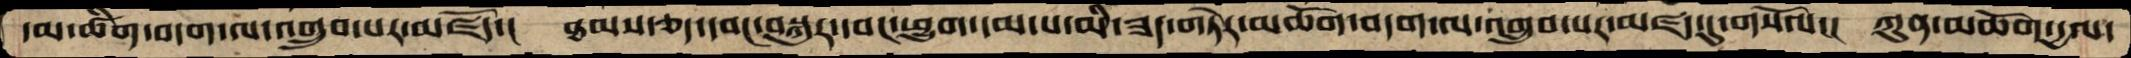དམ་ཚིག་བདག་ལ་འགྲུབ་པར་མཛོད་།  ཐམས་ཅད་དབང་བསྐུར་དབང་ཕྱུག་དམ་པ་མི་ཟད་གཏེར་མཆོག་བདག་ལ་འགྲུབ་པར་མཛད་དུ་གསོལ་།  ཀུན་མཆོག་དྱལ་
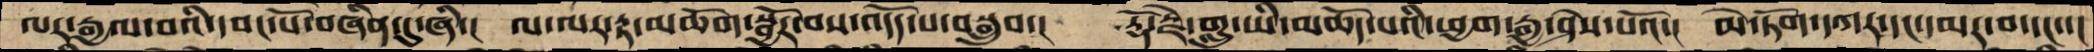ལར་རྒྱལ་བའི་དབང་པོ་བཞིན་དུ་ཞི་།  ལ་ལར་རྟ་མཆོག་སྦྱོར་བས་འདོད་པ་བསྒྲུབ་།  རྡོ་རྗེ་གླུ་ཡི་མཆོད་པའི་ཕྱག་རྒྱ་ཤེས་པའོ་།  མེ་ཏོག་དཀར་དང་དམར་བ་དང་་།
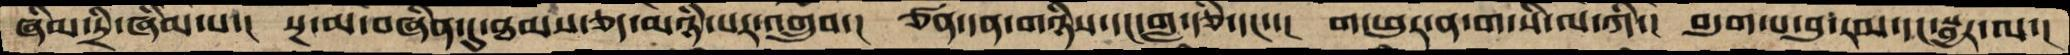ཞིམ་དྲི་ཞིམ་པ་།  སྔ་མ་བཞིན་དུ་ཐམས་ཅད་མཉཾ་པར་འགྲུབ་།  ཙན་དན་གཉིས་དང་གླ་རྩི་དང་་།  ག་ཕུར་ན་ག་སི་ལ་ཀི་།  བདུག་པ་བུ་རམ་དང་སྦྱར་ལ་།
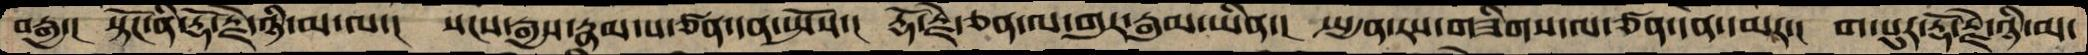བརྒྱ་།  སྟོང་ནི་རྡོ་རྗེ་ཉི་མ་ལ་།  སངས་རྒྱས་རྣམ་པ་ཙན་དན་སྤོས་།  རྡོ་རྗེ་ཅན་ལ་གུར་རྒུམ་ཡིན་།  སྤྱན་རས་གཟིགས་ལ་ཙན་དན་མར་།  ག་པུར་རྡོ་རྗེ་ཉི་མ་
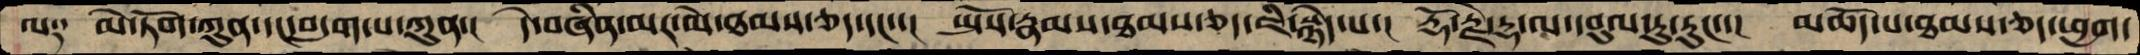ལ༑  མེ་ཏོག་ཀུན་དང་བདུག་པ་ཀུན་།  དེ་བཞིན་མར་མེ་ཐམས་ཅད་དང་་།  སྤོས་རྣམས་ཐམས་ཅད་ཇི་སྙེད་པ་།  རྡོ་རྗེ་དྷ་ལ་དབུལ་ཏུ་རུང་་།  མཆོད་པ་ཐམས་ཅད་ཕྱག་
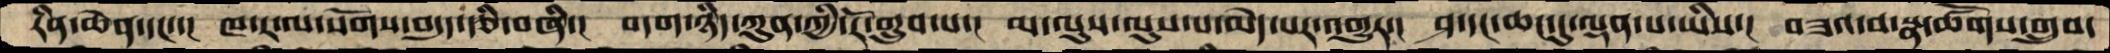རིན་ཆེན་དང་་།  ཁ་ར་ལ་སོགས་བདུད་རྩི་བཞི་།  བདག་ཉིད་ཀུན་ཀྱི་རོ་གྲུབ་པ་།  མ་ལུས་ལུས་པ་མེད་པར་འགྱུར་།  ཤ་དང་ཆང་དུ་ལྡན་པ་ཡིས་།  བཟའ་བ་སྣ་ཚོགས་གྲུབ་
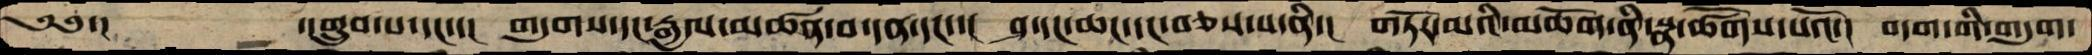༄༅་།    ་།གྲུབ་པ་དང་་།  གདུག་དང་རྒྱལ་མཚན་བ་དན་དང་་།  ཤ་དང་ཆང་དང་བཅས་པ་ནི་།  གཏོར་མའི་མཆོག་ནི་སྣ་ཚོགས་པའོ་།  བདག་གི་གདུག་
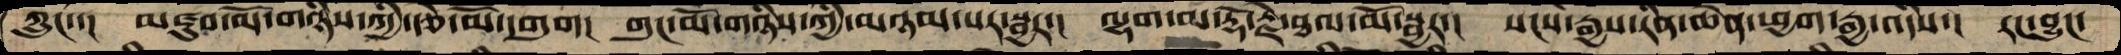ཀྲུང་་།  མཛུབ་མོ་གཉིས་ཀྱི་རྩེ་མོ་དགུག།  གུང་མོ་གཉིས་ཀྱི་མཉམ་པར་སྦྱར་།  ལྷག་མ་རྡོ་རྗེ་ཐལ་མོ་སྦྱར་།  སངས་རྒྱས་རིན་ཆེན་ཕྱག་རྒྱ་འདིས་།  རང་བྱུང་
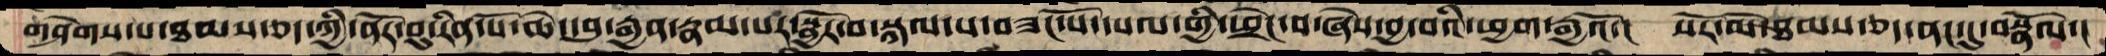གཤེགས་པ་ཐམས་ཅད་ཀྱི་ནོར་བུ་རིན་པོ་ཆེ་དབུ་རྒྱན་རྣམ་པར་སྦྱོར་བ་སྐལ་པ་བཟང་པོ་དཔལ་གྱི་ཕྲེང་བ་ཞེས་བྱ་བའི་ཕྱག་རྒྱའོ་།  སེར་མོ་ཐམས་ཅད་ནང་དུ་བསྣོལ་།
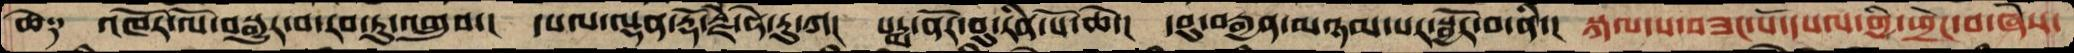ཆེ༑  འཁོར་ལོ་བསྒྱུར་བ་རབ་ཏུ་འགྲུབ་།  དཔལ་ལྡན་རྡོ་རྗེ་ཧེ་རུ་ཀ་།  པདྨ་ནོར་བུ་རིན་པོ་ཆེ་།  དབུ་བརྒྱན་མཉམ་པར་སྦྱོར་བ་ནི་།  སྐལ་པ་བཟང་པོ་དཔལ་གྱི་ཕྲེང་བ་ཞེས་
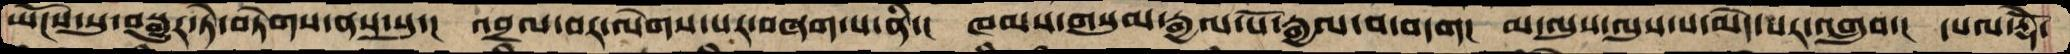ཡོངས་སུ་བསྒྱུར་ཏེ་བཏེགས་ནས་སུ་།  འབྲལ་བར་ལེགས་པར་བཞག་པ་ནི་།  ཁམས་གསུམ་རྒྱལ་པོ་རྒྱལ་བ་བདག།  མ་ལུས་ལུས་པ་མེད་པར་འགྲུབ་།  དཔལ་རྡོེ་
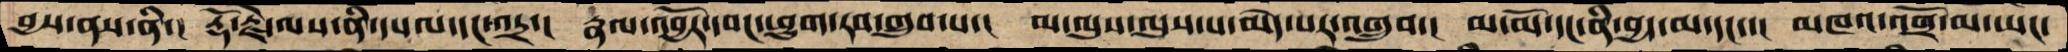བྱས་ནས་ནི་། རྡོ་རྗེ་ལས་ནི་དཔལ་དང་འདྲ་།  རྣལ་འབྱོར་དབང་ཕྱུག་རབ་གྲུབ་པ་།  མ་ལུས་ལུས་པ་མེད་པར་འགྲུབ་།  མ་མོ་དང་ནི་བྱད་མ་དང་་།  མཁའ་འགྲོ་མ་ཡང་
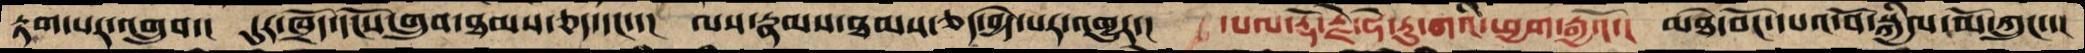རྟག་པར་འགྲུབ་།  དུར་ཁྲོད་དངོས་གྲུབ་ཐམས་ཅད་དང་་།  ལས་རྣམས་ཐམས་ཅད་བྱེད་པར་འགྱུར་།  དཔལ་རྡོ་རྗེ་ཧེ་རུ་ཀའི་ཕྱག་རྒྱའོ་།  མཐེ་བོང་དཔའ་བོ་སྐྱིལ་མོ་ཀྲུང་་།
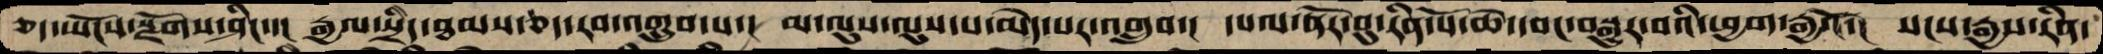ཅད་ཡོངས་སྫོགས་ཤིང་་།  རྒྱལ་སྲིད་ཐམས་ཅད་རབ་འགྲུབ་པ་།  མ་ལུས་ལུས་པ་མེད་པར་འགྲུབ་།  དཔལ་ནོར་བུ་རིན་པོ་ཆེ་དབང་བསྒྱུར་བའི་ཕྱག་རྒྱའོ་།  སངས་རྒྱས་རིན་
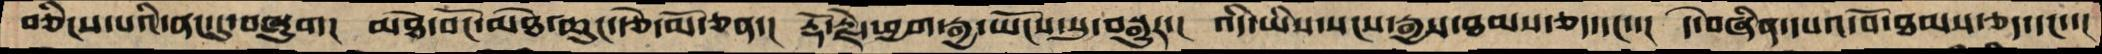བཅིངས་པའི་ནང་དུ་བཞུག།  མཐེ་བོང་མཐེ་ཆུང་རྩེ་མོ་ཅན་།  རྡོ་རྗེ་ཕྱག་རྒྱ་ཡོངས་སུ་བསྒྱུར་།  འདི་ཡིས་སངས་རྒྱས་ཐམས་ཅད་དང་་།  དེ་བཞིན་དཔའ་བོ་ཐམས་ཅད་དང་་།
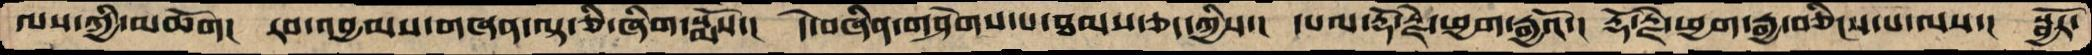ལས་ཀྱི་མཆོག།  རབ་འབྱམས་གཞན་ལྟ་ཅི་ཞིག་སྨོས་།  དེ་བཞིན་གཤེགས་པ་ཐམས་ཅད་གྱིས་།  དཔལ་རྡོ་རྗེ་ཕྱག་རྒྱའོ་།  རྡོ་རྗེ་ཕྱག་རྒྱ་བཅིངས་པ་ལས་།  སྦྱོར་
